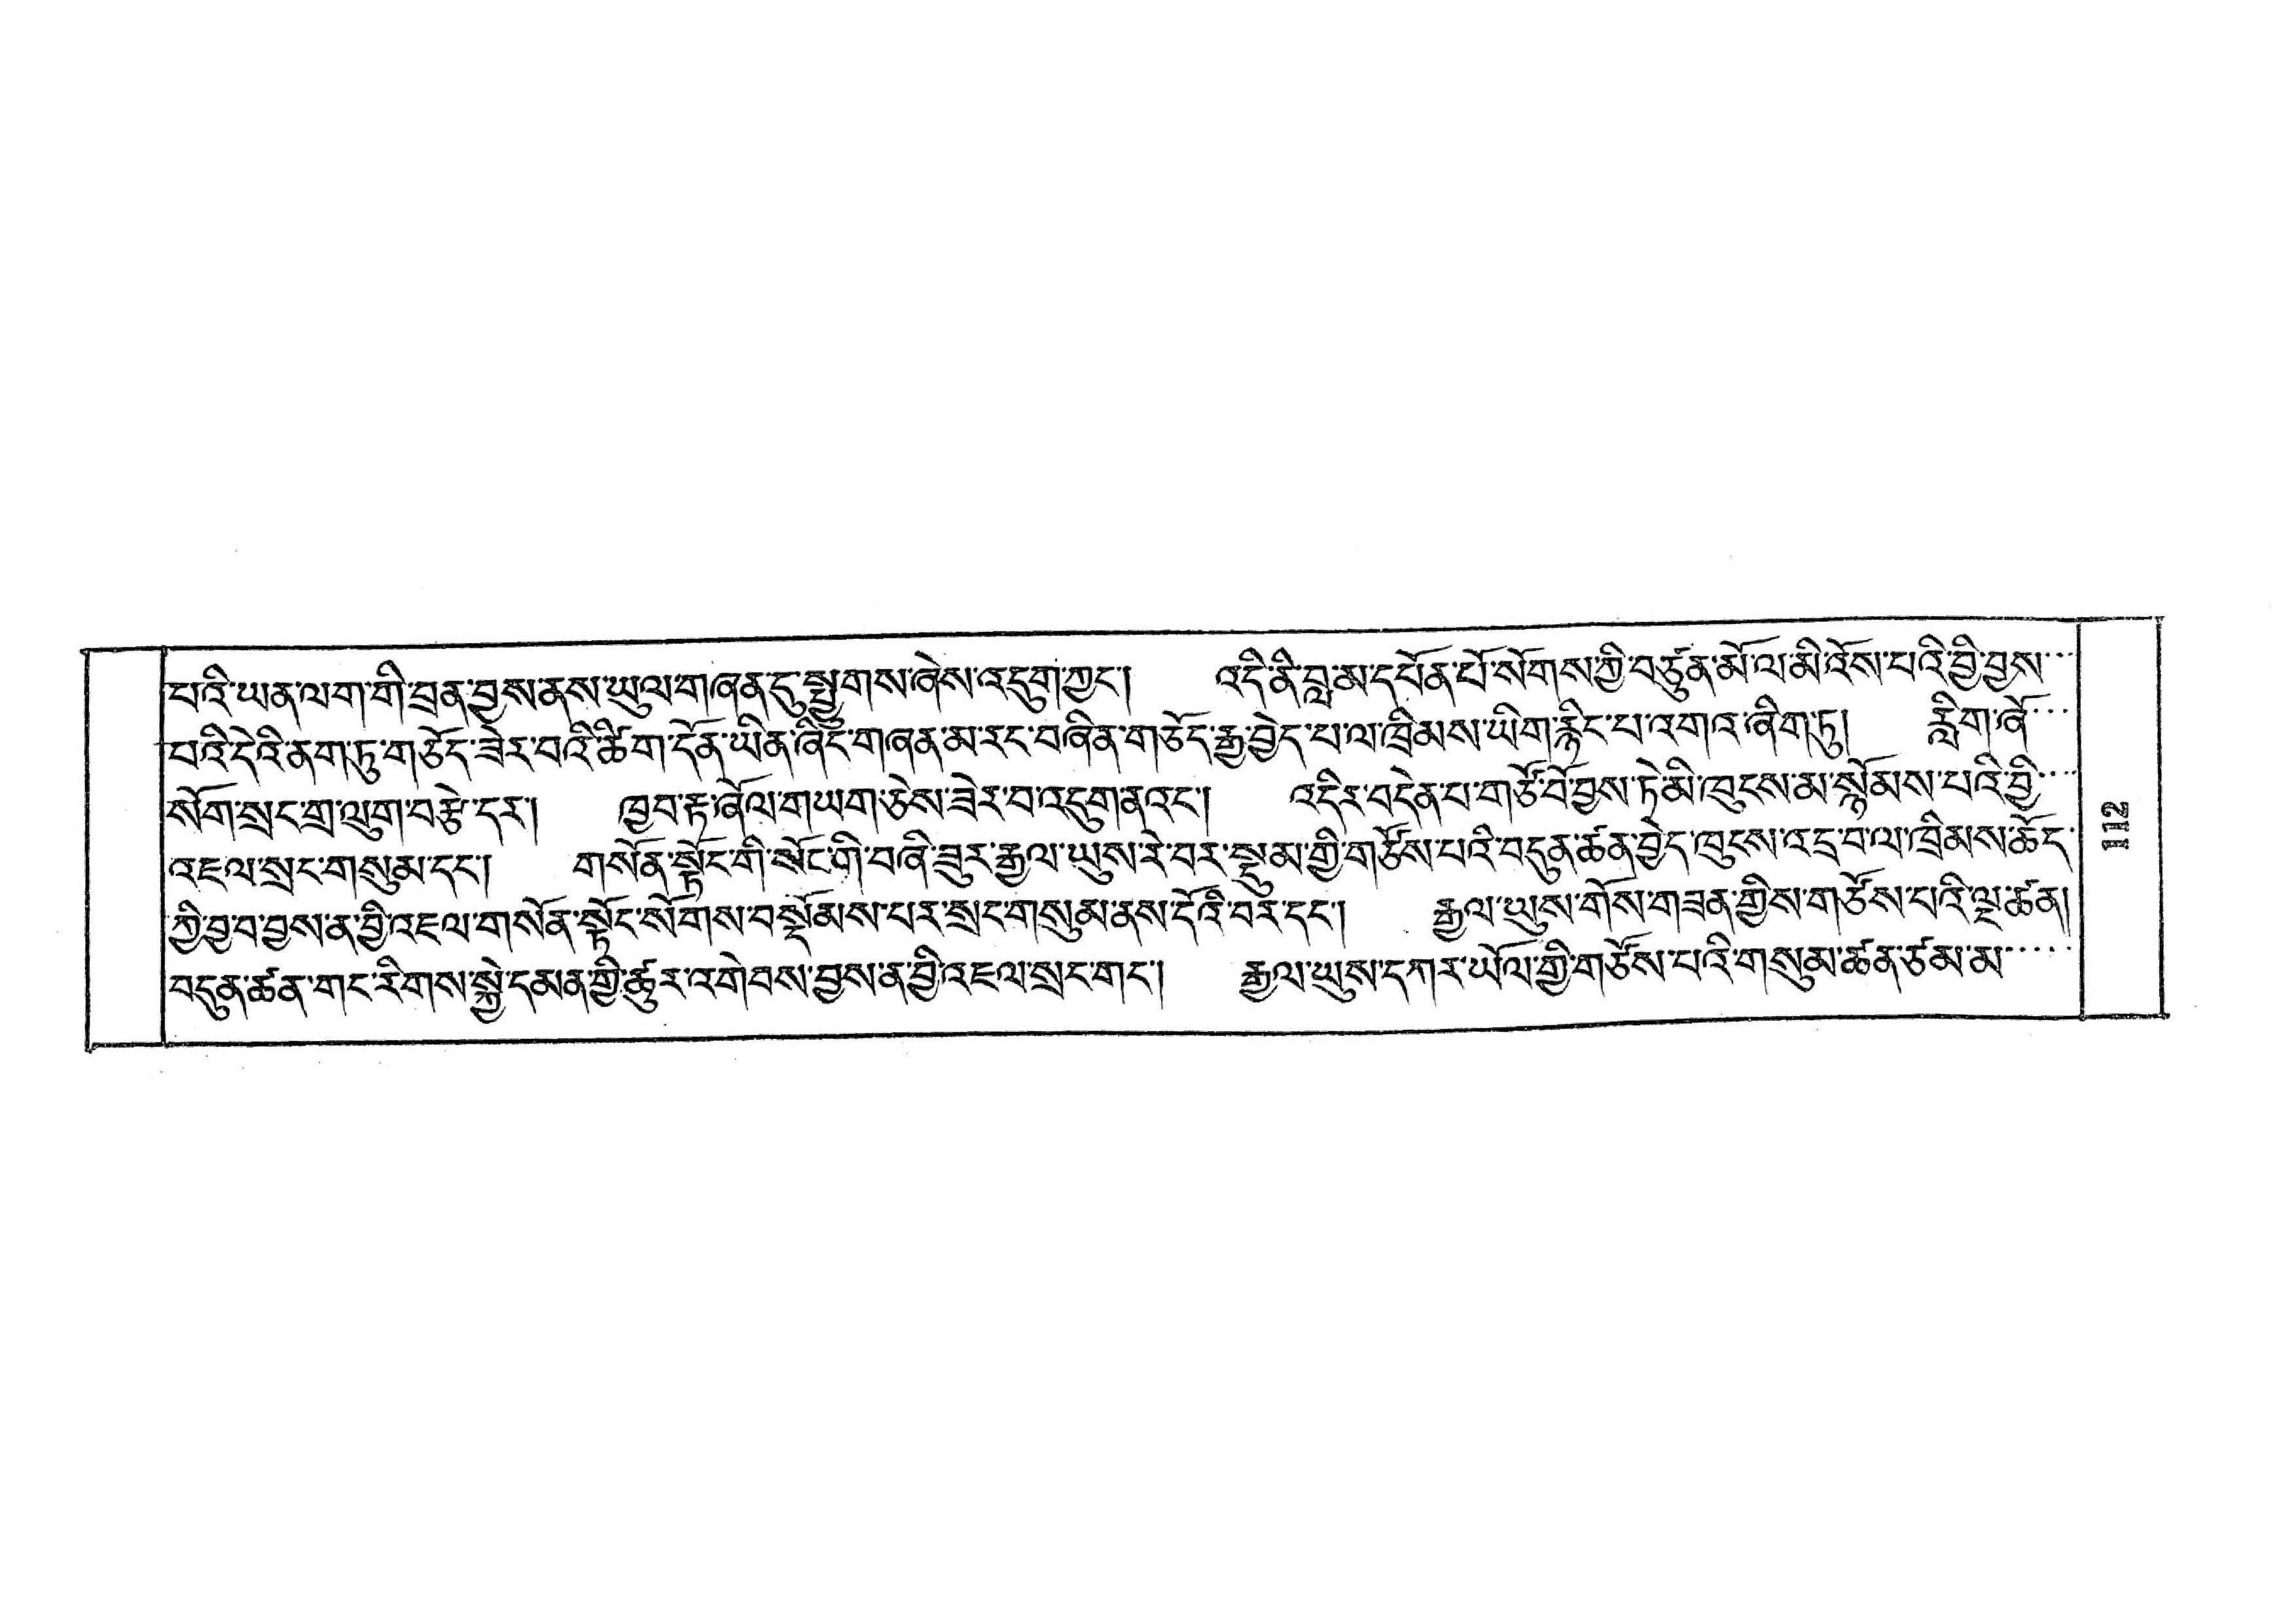པའི་ཡན་ལག་གི་བྲན་བྱས་ནས་ཡུལ་གཞན་དུ་སྤྱུགས་ཞེས་འདུག་ཀྱང་། འདི་ནི་བླ་མ་དཔོན་པོ་སོགས་ཀྱི་བཙུན་མོ་ལ་མི་འོས་པའི་བྱི་བྱས་་་
པའི་དེའི་ནག་ཏུ་གཅོད་ཟེར་བའི་ཚིག་དོན་ཡིན་ཞིང་གཞན་མ་རང་བཞིན་གཅོད་རྒྱུ་བྱེད་པ་ལ་ཁྲིམས་ཡིག་རྙིང་པ་འགའ་ཞིག་ཏུ། རླིག་ཞོ་་་
སོག་སྲང་གྲ་ལུག་བརྩེ་དར་། ཁྱབ་རྟ་ཞོལ་གཡག་ཅེས་ཟེར་བ་འདུག་ནའང་། འདིར་བདེན་པ་གཙོ་བོ་བྱས་ཏེ་མི་ཁུངས་མ་སྙོམས་པའི་བྱི་་་་
འཇལ་སྲང་གསུམ་དང་། གསོན་སྟོང་གི་སོང་གི་བཞི་ཟུར་རྒྱལ་ཡུས་རེ་བར་སྡུམ་གྱི་གཙོས་པའི་བདུན་ཚན་བྱེད་ཁུངས་འདྲ་བ་ལ་ཁྲིམས་ཆོད་
ཀྱི་བྱ་བ་བྱས་ན་བྱི་འཇལ་གསོན་སྟོང་སོགས་བསྡོམས་པར་སྲང་གསུམ་ནས་དོའི་བར་དང་། རྒྱལ་ཡུས་གོས་གཟིན་གྱིས་གཙོས་པའི་ལྔ་ཚན།
བདུན་ཚན་གང་རིགས་སྐྱེ་དམན་གྱི་ཚུར་འགེབས་བྱས་ན་བྱི་འཇལ་སྲང་གང་། རྒྱལ་ཡུས་དཀར་ཡོལ་གྱི་གཙོས་པའི་གསུམ་ཚན་ཙམ་མ་་་་་
